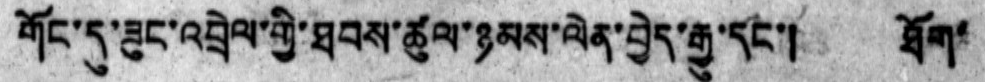གོང་དུ་ཟུང་འབྲེལ་གྱི་ཐབས་ཚུལ་ཉམས་ལེན་བྱེད་རྒྱུ་དང་། ཐོག་
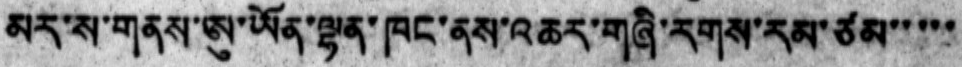མར་ས་གནས་ཨུ་ཡོན་ལྷན་ཁང་ནས་འཆར་གཞི་རགས་རམ་ཙམ་་་་་
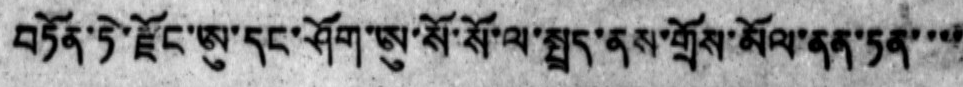བཏོན་ཏེ་རྫོང་ཨུ་དང་ཤོག་ཨུ་སོ་སོ་ལ་སྤྲད་ནས་གྲོས་མོལ་ནན་ཏན་་་་
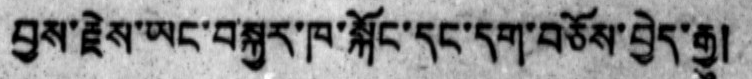བྱས་རྗེས་ཡང་བསྐྱར་ཁ་སྐོང་དང་དག་བཅོས་བྱེད་རྒྱུ།
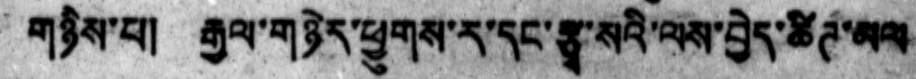གཉིས་པ། རྒྱལ་གཉེར་ཕྱུགས་ར་དང་རྩྭ་སའི་ལས་བྱེད་ཚིཊ་མལ
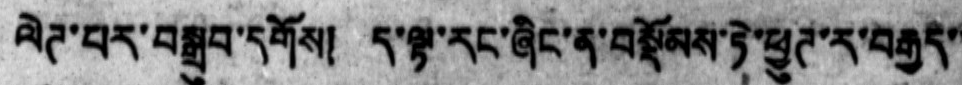ལེཊ་པར་བསྒྲུབ་དགོས། ད་ལྟ་རང་ཞིང་ན་བསྡོམས་ཏེ་ཕྱུཊ་ར་བརྒྱུད་་
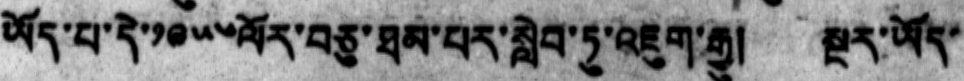ཡོད་པ་དེ་༡༩༥༦ལོར་བཅུ་ཐམ་པར་སླེབ་ཏུ་འཇུག་རྒྱུ། སྔར་ཡོད་
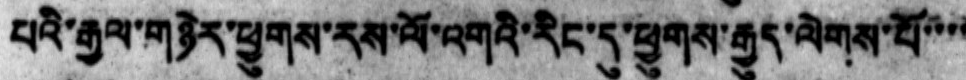པའི་རྒྱལ་གཉེར་ཕྱུགས་རས་ལོ་འགའི་རིང་དུ་ཕྱུགས་རྒྱུད་ལེགས་པོ་་་་
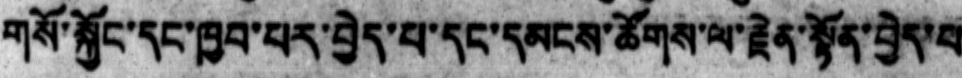གསོ་སྐྱོང་དང་ཁྱབ་པར་བྱེད་པ་དང་དམངས་ཚོགས་ལ་རྗེན་སྟོན་བྱེད་པ
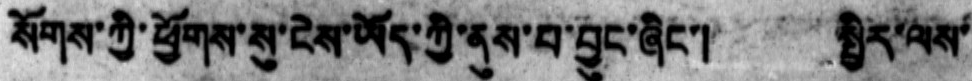སོགས་ཀྱི་ཕྱོགས་སུ་ངེས་ཡོད་ཀྱི་ནུས་པ་བྱུང་ཞིང་། སྤྱིར་ལས་
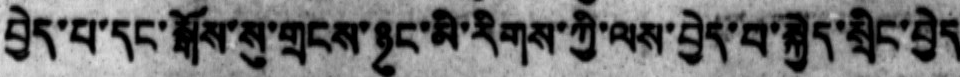བྱེད་པ་དང་སྒོས་སུ་གྲངས་ཉུང་མི་རིགས་ཀྱི་ལས་བྱེད་པ་སྐྱད་སྲིང་བྱེད
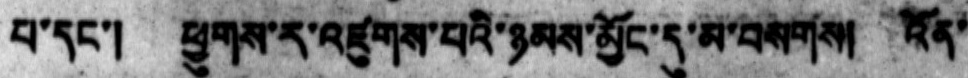པ་དང་། ཕྱུགས་རུ་འཛུགས་པའི་ཉམས་མྱོང་དུ་མ་བསགས། འོན་
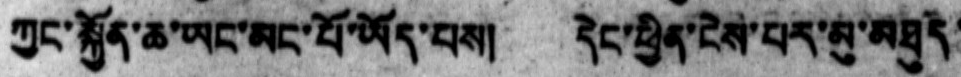ཀྱང་སྐྱོན་ཆ་ཡང་མང་པོ་ཡོད་པས། དེང་ཕྱིན་ངེས་པར་མུ་མཐུད་
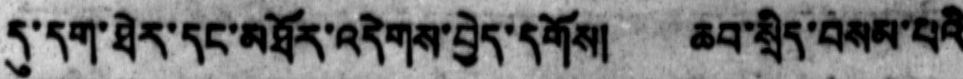དུ་དག་ཐེར་དང་མཐོར་འདེགས་བྱེད་དགོས། ཆབ་སྲིད་བསམ་པའི
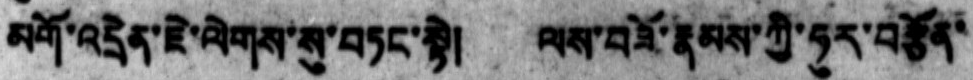མགོ་འདྲེན་ཇེ་ལེགས་སུ་བཏང་སྟེ།   ལས་བཟོ་རྣམས་ཀྱི་ཧུར་བརྩོན་
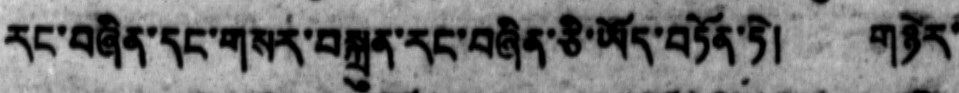རང་བཞིན་དང་གསར་བསྐྲུན་རང་བཞིན་ཅི་ཡོད་བཏོན་ཏེ། གཉོར་
